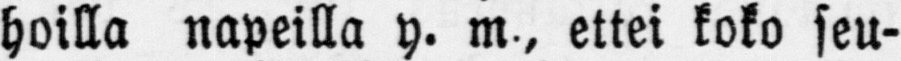hoilla napeilla y. m, ettei koko seu-
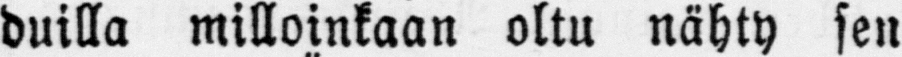duilla milloinkaan oltu nähty sen
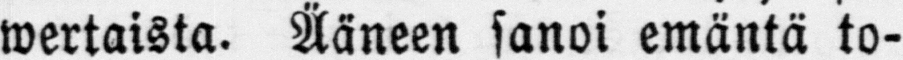wertaista. Ääneen sanoi emäntä to-
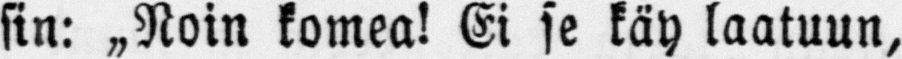sin: „Noin komea! Ei se käy laatuun,
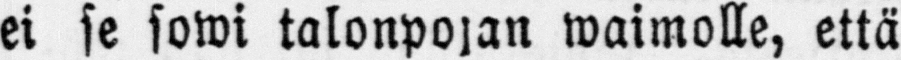ei se sowi talonpojan waimolle, että
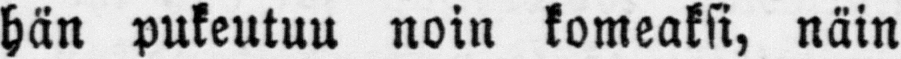hän pukeutuu noin komeaksi, näin
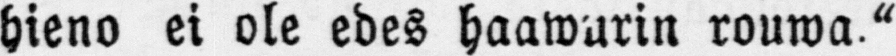hieno ei ole edes haawurin rouwa"
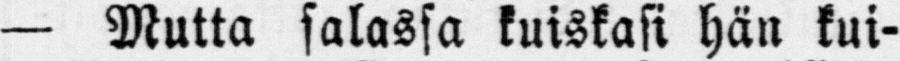— Mutta salassa kuiskasi hän kui-
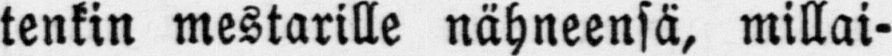tenkin mestarille nähneensä, millai-
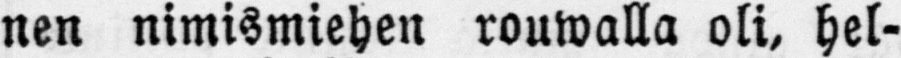nen nimismiehen rouwalla oli, hel-
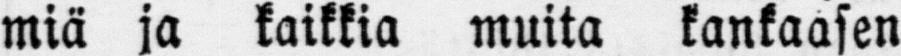miä ja kaikkia muita kankaasen
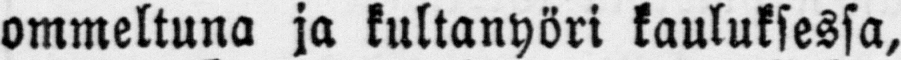ommeltuna ja kultanyöri kauluksessa,
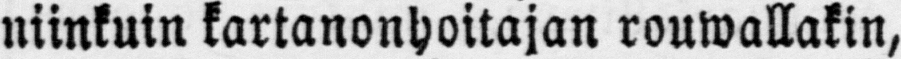niinkuin kartanonhoitajan rouwallakin,
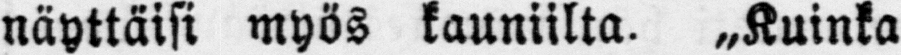näyttäisi myös kauniilta. „Kuinka
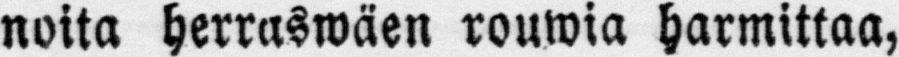noita herraswäen rouwia harmittaa.
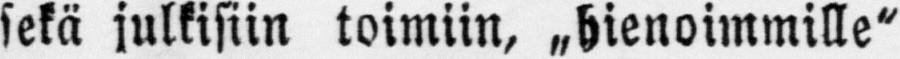sekä julkisiin toimiin, „hienoimmille"
